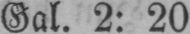Gal. 2: 20.
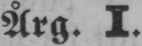Årg. I.
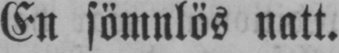En sömnlös natt.
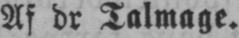Af dr Talmage.
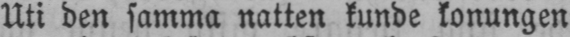Uti den samma natten kunde konungen
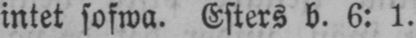intet sofwa. Esters b. 6: 1.
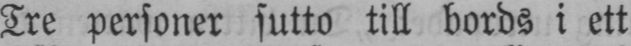Tre personer sutto till bords i ett
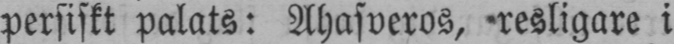persiskt palats: Ahasveros, resligare i
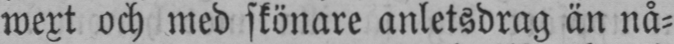wext och med skönare anletsdrag än nå-
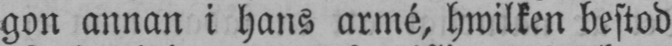gon annan i hans armé, hwilken bestod
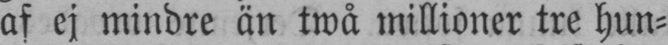af ej mindre än twå millioner tre hun-
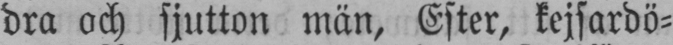dra och sjutton män, Ester, kejsardö-
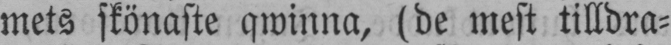mets skönaste qwinna, (de mest tilldra-
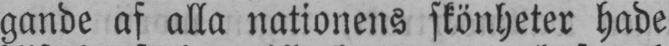gande af alla nationens skönheter hade
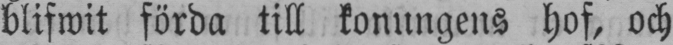blifwit förda till konungens hof, och
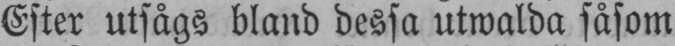Ester utsågs bland dessa utwalda såsom
